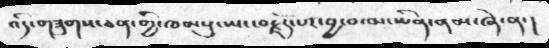འདི་གཟུགས་ཅན་གྱི་ཁམསུ་ཡང་བརྗོད་པར་བྱ་བ་མ་ཡིན་ནམ་ཞེ་ན་།
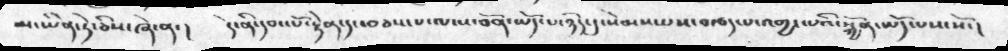མ་ཡིན་ཏེ་ཅིས་ཞེ་ན་།   དེ་ནི་དབང་པོ་རྟེན་དང་བཅས་པ་ལ་ས་བོན་ཡོད་པ་ཉིད་དུ་སེམས་པས་བརྩད་པ་འགྱང་པའི་སྐྱོན་ཡོད་པས་སོ་།
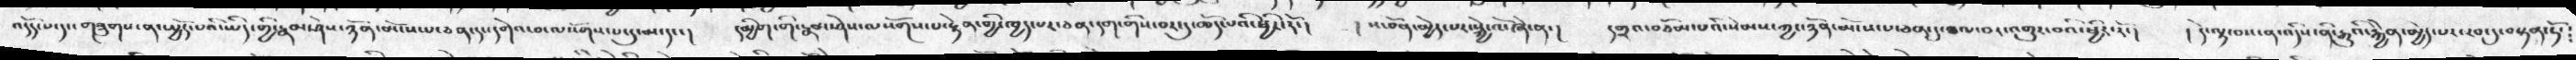འདོད་པ་དང་གཟུགས་ན་སྤྱོད་པའི་ཡིད་གྱི་རྣམ་ཤེས་ཉོན་མོངས་པ་ཅན་དང་དགེའ་བ་ལསོགས་པ་དུ་མ་དང་།  དམྱིག་པའི་རྣམ་ཤེས་ལསོགས་པ་རྟེན་གྱི་ཁྱད་པར་ཅན་དག་གིས་བར་དུ་ཆོད་པའི་ཕྱིར་རོ་།  །ས་བོན་མྱེད་པར་སྐྱེ་འོ་ཞེ་ན་། དགྲའ་བཅོམ་པའི་སེམས་ཀྱང་ཉོན་མོངས་པ་ཅན་དུ་ཐལ་བར་འགྱུར་བའི་ཕྱིར་རོ་།  །དེ་ལྟ་བས་ན་འདིས་ནི་རྒྱུའི་རྐྱེན་མྱེད་པར་རབ་དུ་བསྟན་ཏོ་༴
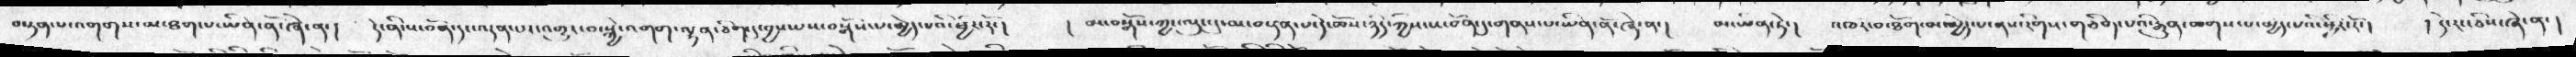བསྟན་པ་འགགས་མ་ཐག་པ་ཡིན་ནོ་ཞེ་ན་།  དེ་ནི་ས་བོན་དང་ལྡན་པར་འགྱུར་བ་སྐྱེ་འགག་ལྷན་ཅིག་དུ་བྱས་པས་བསྒོས་པ་མྱེད་པའི་ཕྱིར་རོ་། ། མ་བསྒོས་ཀྱང་ལུང་དུ་མ་བསྟན་པ་དེ་ཆོས་ཉིད་ཀྱི་ས་བོན་དུ་གནས་པ་ཡིན་ནོ་ཞེ་ན་།  མ་ཡིན་ཏེ་།  འཁོར་བ་ཐོག་མ་མྱེད་པ་ནས་རིགས་གཅིག་པའི་རྒྱུན་ཆགས་པ་མྱད་པའི་ཕྱིར་རོ་།  ། དེ་རང་ཅིས་ཞེ་ན་།
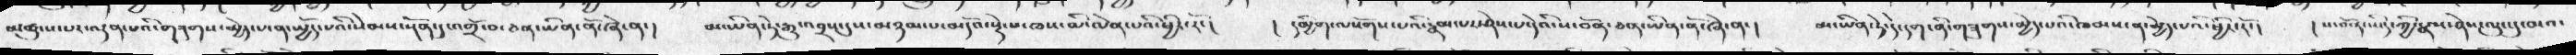མཚུངས་པར་ལྡན་པའི་གཟུགས་མྱེད་པ་ན་སྤྱོད་པའི་སེམས་སྔོན་དུ་འགྲོ་བ་ཅན་ཡིན་ནོ་ཞེ་ན་།   མ་ཡིན་ཏེ་རྒྱུ་འབྲས་དུས་མཉམ་པ་མདོའ་སྡེ་པ་མཁས་མི་ལེན་པའི་ཕྱིར་རོ་།   ། དམྱིག་ལསོགས་པའི་རྣམ་པར་ཤེས་པ་དེའི་ས་བོན་ཅན་ཡིན་ནོ་ཞེ་ན་།  མ་ཡིན་ཏེ་དེ་དག་ནི་གཟུགས་མྱེད་པའི་ཁམས་ན་མྱེད་པའི་ཕྱིར་རོ་།  །ས་བོན་ཡིད་ཀྱི་རྣམ་ཤེས་ལུང་དུ་མའ་
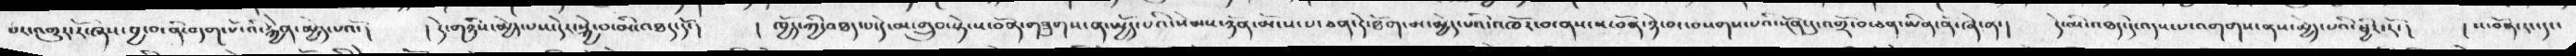བར་འགྱུར་རོ་ཞེས་བྱ་བ་ནི་བདག་པོ་འི་རྐྱེན་མྱེད་པའོ་།  །དེ་གཉིས་མྱེད་པས་དེར་སྐྱེ་བ་མི་འཐད་དོ་།  ། ཁྱོད་ཀྱི་འཐད་པ་དེ་མ་གྲུབ་སྟེ་ས་བོན་གཟུགས་ན་སྤྱོད་པའི་སེམས་ཉོན་མོངས་པ་ཅན་དེ་ཐོག་པ་མྱེད་པའི་འཁོར་བ་ནས་ས་བོན་ཉེ་བར་བསགས་པའི་སྔོན་དུ་འགྲོ་བ་ཅན་ཡིན་ནོ་ཞེ་ན་།    དེ་མི་འཐད་དེ་འདས་པ་འགགས་ནས་མྱེད་པའི་ཕྱིར་རོ་།   །ས་བོན་རང་དང་
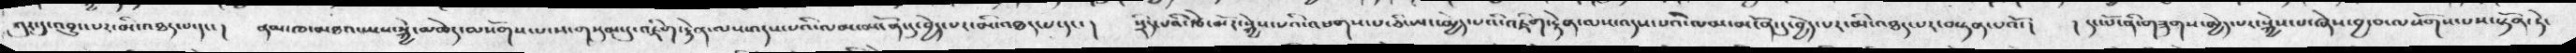གུར་དུ་འབྱུང་པར་མི་འཐད་པ་དང་།   ནམ་ཁ་མཐའ་ཡས་སྐྱེ་མཆེད་ལསོགས་པ་ས་གསུམ་དུ་འཇིག་རྟེན་ལས་འདས་པའི་ལམ་མངོན་དུ་བྱེད་པར་མི་འཐད་པ་དང་།  སྲིད་པའི་རྩེ་མོར་སྐྱེས་པའི་འཕགས་པ་ཅི་ཡང་མྱེད་པའི་འཇིག་རྟེན་ལས་འདས་པའི་ལམ་མངོན་དུ་བྱེད་པར་མི་འཐད་པར་བསྟན་པའོ་།   ། དང་པོ་ནི་གཟུགས་མྱེད་པར་སྐྱེས་པ་ཞེས་བྱ་བ་ལསོགས་པས་སྟོན་ཏེ་
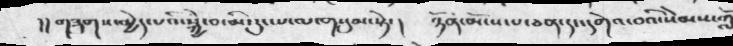།།  གཟུགས་མྱེད་པའི་སྐྱེ་བ་མི་རུང་པ་ལ་གསུམ་སྟེ་།      ཉོན་མོངས་པ་ཅན་དང་དགེའ་བའི་སེམས་གློ
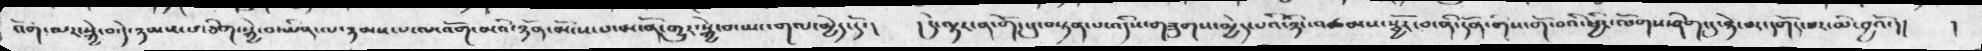འོག་མར་སྐྱེ་བ་དེ་ཉམས་པ་ཅིག་སྐྱེ་བ་ཡིན་ལ་ཉམས་པ་ལ་འོག་མའི་ཉོན་མོངས་པ་མངོན་གྱུར་སྐྱེ་བ་ཡང་གལ་མྱེད་དོ་།    །  དེ་ལྟར་ན་གོང་དུ་བསྟན་པ་འདིས་གཟུགས་མྱེད་པའི་ཉིང་འཚམས་སྦྱོར་བ་ནི་དོན་གིས་གོ་བའི་ཕྱིར་ལོགས་ཤིག་དུ་ཉེ་བར་དགོད་པར་མི་བྱའོ་།།    །
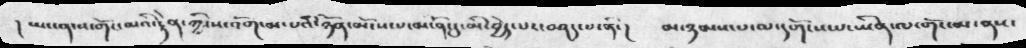། ཡང་ན་ས་གོང་མའི་རྟེན་ཀྱི་ས་འོག་མ་པའི་ཉོན་མོངས་པ་མངོན་དུ་མི་བྱེད་པར་བཤད་པ་ནི་།  མ་ཉམས་པ་ལ་དགོངས་པ་ཡིན་ལ་གོང་མ་ནས་
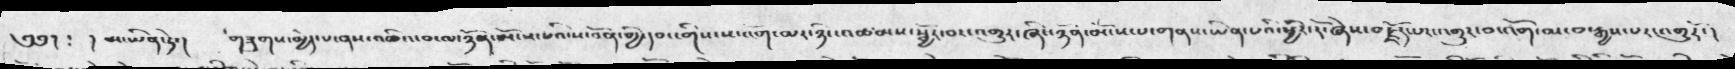༄༅།  ༴ །མ་ཡིན་ཏེ་།  གཟུགས་མྱེད་པ་ནས་འཆིའ་བ་ལ་ཉོན་མོངས་པའི་ས་བོན་གྱི་དབང་གིས་ས་འོག་མར་ཉིང་འཚམས་སྦྱོར་བར་འགྱུར་ཞིང་ཉོན་མོངས་པ་གནས་ཡིན་པའི་ཕྱིར་རོ་ཞེས་བརྗོད་པར་འགྱུར་བ་འོག་མ་བ་རྒྱས་པར་འགྱུརོ་།
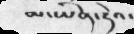མ་ཡིན་ཏེའ་
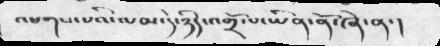འཕགས་པའི་ལམ་དེ་ཉིད་འགྲོ་པ་ཡིན་ནོ་ཞེ་ན་།
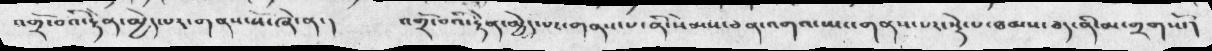འགྲོ་བའི་རྟེན་མྱེད་པར་གནས་སོ་ཞེ་ན་།  འགྲོ་བའི་རྟེན་མྱེད་པར་གནས་པ་ནི་སེམས་ཅན་འགའ་ཡང་གནས་པར་སྡེ་པ་ཐམས་ཅད་ནི་མ་གྲག་པོ།
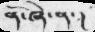ནོ་ཞེ་ན་།
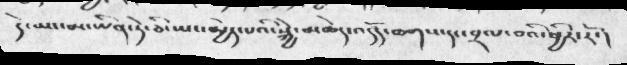དེ་ཡང་མ་ཡིན་ཏེ་ཅི་ཡང་མྱེད་པའི་སྐྱེ་མཆེད་འདོད་ཆགས་དང་བྲལ་བའི་ཕྱིར་རོ་།
